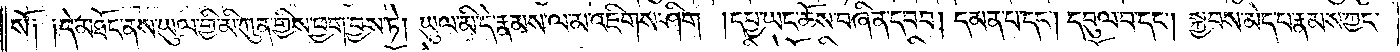སོ༑ ༑དེ་མཐོང་ནས་ཡུལ་གྱི་མི་ཀུན་གྱིས་ཕྱག་བྱས་ཏེ། ཡུལ་མི་དེ་རྣམས་ལ་མ་འཇིགས་ཤིག །དཔྱ་ཡང་ཆོས་བཞིན་དབབ། དམན་པ་དང༌། དབུལ་བ་དང༌། སྐྱབས་མེད་པ་རྣམས་ཀྱང་
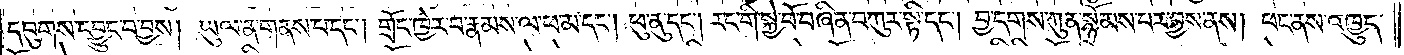དབུགས་དབྱུང་བ་བྱས། ཡུལ་ན་གནས་པ་དང༌། གྲོང་ཁྱེར་བ་རྣམས་ལ་ཕ་མ་དང༌། ཕུ་ནུ་དང༌། རང་གི་སྐྱེ་བོ་བཞིན་བཀུར་སྟི་དང༌། བྱ་དགས་ཀུན་སྙོམས་པར་བྱས་ནས། ཕང་ནས་འཁྱུད་
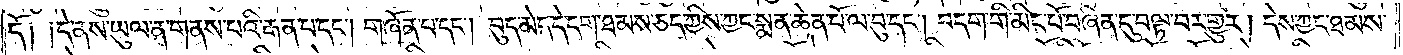དོ༑ ༑དེ་ནས་ཡུལ་ན་གནས་པའི་རྒན་པ་དང༌། གཞོན་པ་དང༌། བུད་མེད་དེ་དག་ཐམས་ཅད་ཀྱིས་ཀྱང་སྨན་ཆེན་པོ་ལ་བུ་དང༌། བདག་གི་མིང་པོ་བཞིན་དུ་བལྟ་བར་གྱུར། དེས་ཀྱང་ཐམས་
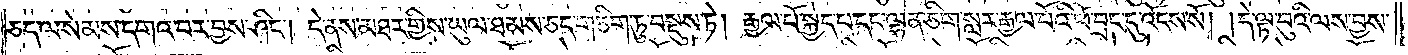ཅད་ལ་སེམས་དགའ་བར་བྱས་ཤིང༌། དེ་ནས་མཐར་གྱིས་ཡུལ་ཐམས་ཅད་གཅིག་ཏུ་བསྡུས་ཏེ། རྒྱལ་པོ་སྐྱེད་པ་དང་ལྷན་ཅིག་སླར་རྒྱལ་པོའི་ཕོ་བྲང་དུ་འོངས་སོ། །དེ་ལྟ་བུའི་ལས་བྱས་
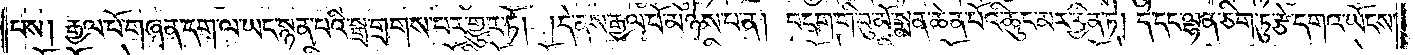པས། རྒྱལ་པོ་གཞན་དག་ལ་ཡང་སྙན་པའི་སྒྲ་གྲགས་པར་གྱུར་ཏོ། །དེ་ནས་རྒྱལ་པོ་མཉེས་པ་ན། བདག་གི་བུ་མོ་སྨན་ཆེན་པོའི་ཆུང་མར་བྱིན་ཏེ། དེ་དང་ལྷན་ཅིག་ཏུ་རྩེ་དགའ་ཡོངས་
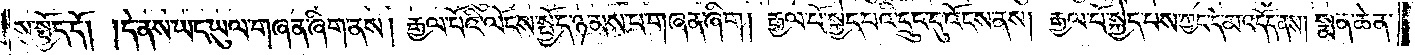སུ་སྤྱོད་དོ། །དེ་ནས་ཡང་ཡུལ་གཞན་ཞིག་ནས། རྒྱལ་པོའི་ལོངས་སྤྱོད་ཉམས་པ་གཞན་ཞིག། རྒྱལ་པོ་སྐྱེད་པའི་དྲུང་དུ་འོངས་ནས། རྒྱལ་པོ་སྐྱེད་པས་ཀྱང་དེ་མ་འདོད་ནས། སྨན་ཆེན་
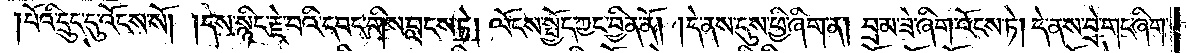པོའི་དྲུང་དུ་འོངས་སོ། །དེས་སྙིང་རྗེ་བའི་དབང་གིས་བླངས་ཏེ། ལོངས་སྤྱོད་ཀྱང་བྱིན་ནོ། །དེ་ནས་དུས་ཕྱི་ཞིག་ན། བྲམ་ཟེ་ཞིག་འོངས་ཏེ། དེ་ནས་བྲེ་གང་ཞིག་
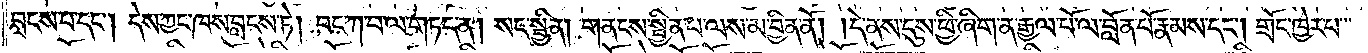བླངས་པ་དང༌། དེས་ཀྱང་ཁས་བླངས་ཏེ། བང་ཀ་བ་ལ་གཏད་ན། སང་སྦྱིན། གནངས་སྦྱིན་པ་ལས་མ་བྱིན་ནོ། །དེ་ནས་དུས་ཕྱི་ཞིག་ན་རྒྱལ་པོ་ལ་བློན་པོ་རྣམས་དང༌། གྲོང་ཁྱེར་པ་
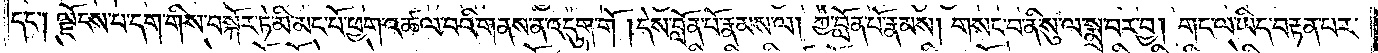དང༌། ལྗོངས་པ་དག་གིས་བསྐོར་ཏེ་མི་མང་པོ་ཕྱག་འཚལ་བའི་གནས་ན་འདུག་གོ །དེས་བློན་པོ་རྣམས་ལ། ཀྱེ་བློན་པོ་རྣམས། གསང་བ་ནི་སུ་ལ་སྨྲ་བར་བྱ། གང་ལ་ཡིད་བརྟན་པར་
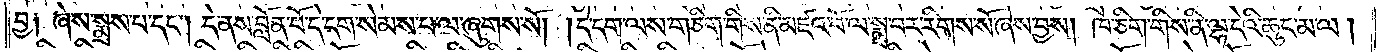བྱ༑ ཞེས་སྨྲས་པ་དང༌། དེ་ནས་བློན་པོ་དེ་དག་སེམས་པ་ལ་ཞུགས་སོ། །དེ་དག་ལས་གཅིག་གིས་ནི་མཛའ་བོ་ལ་སྨྲ་བར་རིགས་སོ་ཞེས་བྱས། ཁ་ཅིག་གིས་ནི་ལྷ་དེའི་ཆུང་མ་ལ།
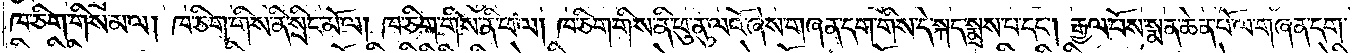ཁ་ཅིག་གིས་མ་ལ། ཁ་ཅིག་གིས་ནི་སྲིང་མོ་ལ། ཁ་ཅིག་གིས་ནི་ཕ་ལ། ཁ་ཅིག་གིས་ནི་ཕུ་ནུ་ལའོ་ཞེས་གཞན་དག་གིས་དེ་སྐད་སྨྲས་པ་དང༌། རྒྱལ་པོས་སྨན་ཆེན་པོ་ལ་གཞན་དག་
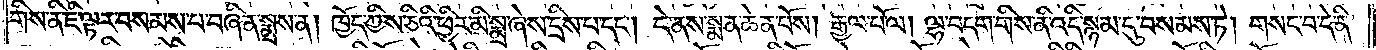གིས་ནི་ཇི་ལྟར་བསམས་པ་བཞིན་སྨྲས་ན། ཁྱོད་ཀྱིས་ཅིའི་ཕྱིར་མི་སྨྲ་ཞེས་དྲིས་པ་དང༌། དེ་ནས་སྨན་ཆེན་པོས། རྒྱལ་པོ་ལ། ལྷ་བདག་གིས་ནི་འདི་སྙམ་དུ་བསམས་ཏེ། གསང་བ་དེ་ནི་
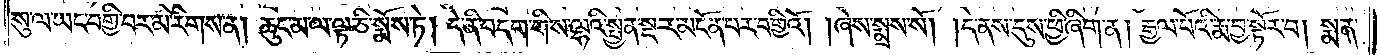སུ་ལ་ཡང་བགྱི་བར་མི་རིགས་ན། ཆུང་མ་ལ་ལྟ་ཅི་སྨོས་ཏེ། དེ་ནི་བདག་གིས་ལྷའི་སྤྱན་སྔར་མངོན་པར་བགྱིའོ། །ཞེས་སྨྲས་སོ། །དེ་ནས་དུས་ཕྱི་ཞིག་ན། རྒྱལ་པོའི་རྨ་བྱ་སྟོར་བ། སྨན་
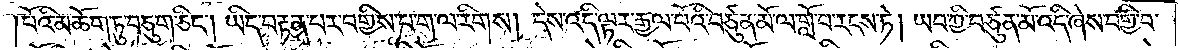པོའི་མཆོག་ཏུ་བཅུག་ཅིང༌། ཡིད་བརྟན་པར་བགྱིས་པ་ག་ལ་རིགས། དེས་འདི་ལྟར་རྒྱལ་པོའི་བཙུན་མོ་ལ་གློ་བ་རངས་ཏེ། ཡབ་ཀྱི་བཙུན་མོ་འདི་ཞེས་བགྱི་བ་
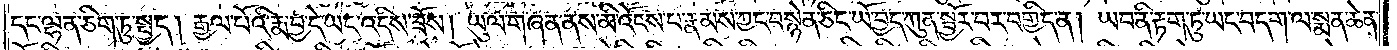དང་ལྷན་ཅིག་ཏུ་སྤྱད། རྒྱལ་པོའི་རྨ་བྱ་དེ་ཡང་འདིས་ཟོས། ཡུལ་གཞན་ནས་མི་འོངས་པ་རྣམས་ཀྱང་བསྙེན་ཅིང་ཡོ་བྱད་ཀུན་སྦྱོར་བར་བགྱིད་ན། ཡབ་ནི་རྟག་ཏུ་ཡང་བདག་ལ་སྨན་ཆེན་
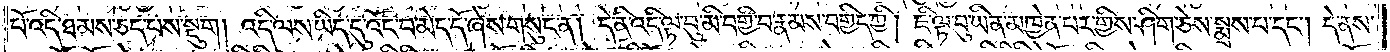པོ་འདི་ཐམས་ཅད་པས་སྡུག །འདི་ལས་ཡིད་དུ་འོང་བ་མེད་དོ་ཞེས་གསུང་ན། དེ་ནི་འདི་ལྟ་བུ་མི་བགྱི་བ་རྣམས་བགྱིད་ཀྱི། ཇི་ལྟ་བུ་ཡིན་མཁྱེན་པར་གྱིས་ཤིག་ཅེས་སྨྲས་པ་དང༌། དེ་ནས་
